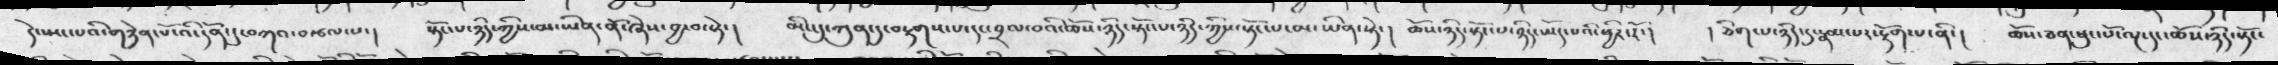དེ་ཡང་པའི་གཉེན་པོ་འི་དོན་དུ་བཀའ་བརྩལ་པ་།    སྟོང་པ་ཉིད་ཀྱིས་མ་ཡིན་ནོ་ཞེས་བྱ་བ་སྟེ་།    མིང་དུ་ཀུན་དུ་བརྟགས་པ་དང་བྲལ་བའི་ཆོས་ཉིད་སྟོང་པ་ཉིད་ཀྱིས་སྟོང་པ་མ་ཡིན་སྟེ་།     ཆོས་ཉིད་སྟོང་པ་ཉིད་ཡོད་པའི་ཕྱིར་རོ་།   ། ཅིག་པ་ཉིད་དུ་རྣམ་པར་རྟོག་པ་ནི་།   ཆོས་ཅན་ཕུང་པོ་ལྔ་དང་ཆོས་ཉིད་སྟོང་
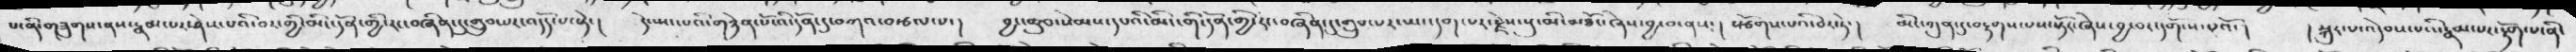པ་ནི་གཟུགས་ནས་རྣམ་པར་ཤེས་པའི་བར་གྱི་མིང་དོན་གྱི་རང་བཞིན་དུ་གྲུབ་པར་འདོད་པ་སྟེ་།   དེ་ཡང་པའི་གཉེན་པོ་འི་དོན་དུ་བཀའ་བརྩལ་པ་།  བྱང་ཆུབ་སེམས་དཔའི་མིང་གི་དོན་གྱི་རང་བཞིན་དུ་གྲུབ་པར་ཡང་དག་པར་རྗེས་སུ་མི་མཐོང་ཞེས་བྱ་བ་ནས༴།   སཙོགས་པའི་བར་ཏེ་།    མིང་གུན་དུ་བརྟགས་པས་སྟོང་ཞེས་བྱ་བར་དགོངས་པའོ་།    སྐུར་པ་འདེབས་པའི་རྣམ་པར་རྟོག་པ་ནི་
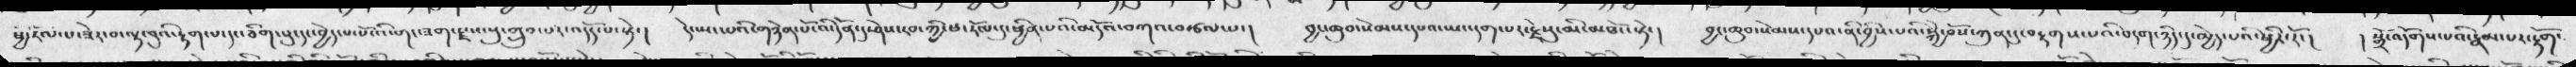ཕྱི་རོལ་པ་ཟེར་བ་ལྟ་བུའི་རྟག་པ་དང་ཅིག་པུ་དང་བྱེད་པ་པོ་འི་གང་ཟག་རྗས་སུ་གྲུབ་པར་འདོད་པ་སྟེ་།    དེ་ཡང་པའི་གཉེན་པོ་འི་དོན་དུ་ཤེས་རབ་ཀྱི་ཕ་རོལ་དུ་ཕྱིན་པའི་མདོའ་བཀའ་བརྩལ་པ་།    བྱང་ཆུབ་སེམས་དཔའ་ཡང་དག་པར་རྗེས་སུ་མི་མཐོང་སྟེ་།   བྱང་ཆུབ་སེམས་དཔའ་ནི་བྱིས་པའི་སྐྱེ་བོས་ཀུན་དུ་བརྟགས་པའི་བདག་ཉིད་དུ་མྱེད་པའི་ཕྱིར་རོ་།    སྒྲོ་འདོགས་པའི་རྣམ་པར་རྟོག་
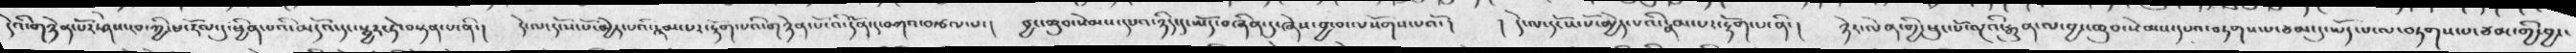དེའི་གཉེན་པོར་ཤེས་རབ་ཀྱི་ཕ་རོལ་དུ་ཕྱིན་པའི་མདོའ་དང་སྦྱར་ཏེ་བསྟན་པ་ནི་།     དེ་ལ་དངོས་པོ་མྱེད་པའི་རྣམ་པར་རྟོག་པའི་གཉེན་པོ་འི་དོན་དུ་བཀའ་བརྩལ་པ་།  བྱང་ཆུབ་སེམས་དཔའ་ཉིད་དུ་མདོ་བཞིན་དུ་ཞེས་བྱ་བ་ལསོགས་པའོ་།      ། དེ་ལ་དངོས་པོ་མྱེད་པའི་རྣམ་པར་རྟོག་པ་ནི་།     ཉེར་ལེན་གྱི་ཕུང་པོ་ལྔའི་རྒྱུན་ལ་བྱང་ཆུབ་སེམས་དཔའ་བརྟགས་པ་ཙམ་དུ་ཡོད་པ་ལ་བརྟགས་པ་ཙམ་གྱི་བྱང་
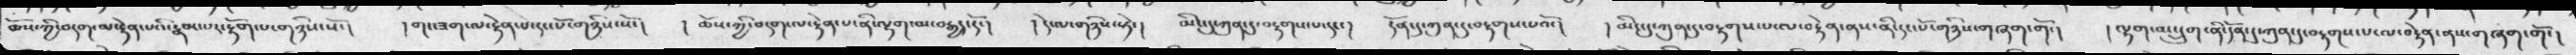ཆོས་ཀྱི་བདག་ལ་རྟེན་པའི་རྣམ་པར་རྟོག་པ་གཉིས་སོ་།   ། གང་ཟག་ལ་རྟེན་པ་དང་པོ་གཉིས་སོ་།  །  ཆོས་ཀྱི་བདག་ལ་རྟེན་པ་ནི་ལྷག་མ་བརྒྱད་དོ་།    ། དེ་ལ་གཉིས་སྟེ་།   མིང་དུ་ཀུན་དུ་བརྟགས་པ་དང་ །   དོན་དུ་ཀུན་དུ་བརྟགས་པའོ་།     ། མིང་དུ་ཀུན་དུ་བརྟགས་པ་ལ་བརྟེན་ནས་ནི་དང་པོ་གཉིས་གཞག་གོ་།   ། ལྷག་མ་དྲུག་ནི་དོན་དུ་ཀུན་དུ་བརྟགས་པ་ལ་བརྟེན་ནས་གཞག་གོ་།
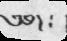༄༅།   ༴
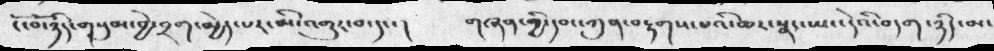ངོ་བོ་ཉིད་གསུམ་བྱེ་བྲག་མྱེད་པར་མི་འགྱུར་བ་དང་།     གཞན་གྱི་དབང་ཀུན་བརྟགས་པའི་ཆར་སྣང་ཡང་དེའི་བདག་ཉིད་མ་
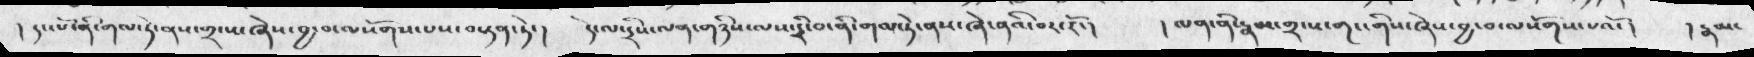།  དང་པོ་ནི་གལ་ཏེ་ནས་གྲངས་ཞེས་བྱ་བ་ལསོགས་པས་བསྟན་ཏེ་།  དེ་ལ་དྲིས་ལན་གཉིས་ལས་དྲི་བ་ནི་གལ་ཏེ་ནས་ཞེ་ནའི་བར་རོ་།  ། ལན་ནི་རྣམ་གྲངས་གང་གིས་ཞེས་བྱ་བ་ལསོགས་པའོ་།   ། རྣམ་
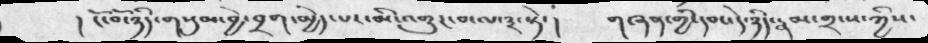།   ངོ་བོ་ཉིད་གསུམ་བྱེ་བྲག་མྱེད་པར་མི་འགྱུར་བ་ལ་༣་སྟེ་།     གཞན་གྱི་དབང་དེ་ཉིད་རྣམ་གྲངས་ཀྱིས་
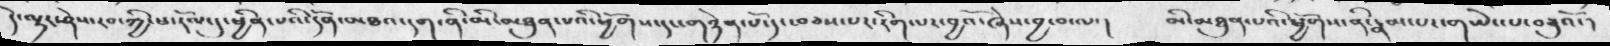དེ་ལྟར་ཤེས་རབ་ཀྱི་ཕ་རོལ་དུ་ཕྱིན་པའི་དོན་མཐའ་དག་ནི་མི་མཐུན་པའི་ཕྱོགས་དང་གཉེན་པོ་དང་བཅས་པར་རིག་པར་བྱའོ་ཞེས་བྱ་བ་ལ་།   མི་མཐུན་པའི་ཕྱོགས་ནི་རྣམ་པར་གཡེང་པ་བཅུའོ་།
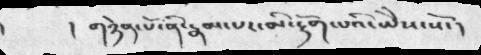།  གཉེན་པོ་ནི་རྣམ་པར་མི་རྟོག་པའི་ཡེེས་སོ་།
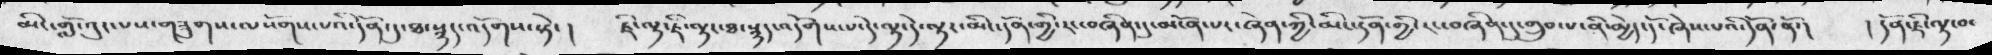མིང་གློ་བུར་པས་གཟུགས་ལསོགས་པའི་དོན་དུ་ཐ་སྙད་འདོགས་སྟེ་།   ཇི་ལྟ་ཇི་ལྟར་ཐ་སྙད་འདོགས་པ་དེ་ལྟ་དེ་ལྟར་མིང་དོན་གྱི་རང་བཞིན་དུ་མངོན་པར་ཞེན་ཀྱི་མིང་དོན་གྱི་རང་བཞིན་དུ་གྲུབ་པ་ནི་མྱེད་དོ་ཞེས་པའི་དོན་ནོ་།  ། དོན་ཇི་ལྟ་བ་
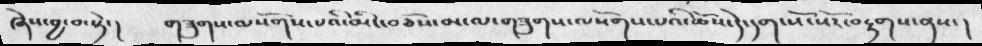ཞེས་བྱ་བ་སྟེ་།   གཟུགས་ལསོགས་པའི་མིང་བཅོས་མ་ལ་གཟུགས་ལསོགས་པའི་ཆོས་དེ་དག་སོ་སོར་བརྟགས་ནས་།
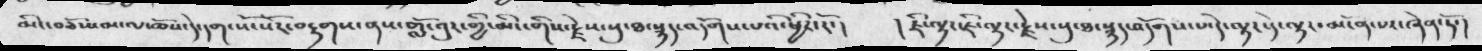མིང་བཅོས་མ་ལ་ཆོས་དེ་དག་སོ་སོར་བརྟགས་ནས་གློ་བུར་གྱི་མིང་གིས་རྗེས་སུ་ཐ་སྙད་འདོགས་པའི་ཕྱིར་རོ་།    ། ཇི་ལྟར་ཇི་ལྟར་རྗེས་སུ་ཐ་སྙད་འདོགས་པ་དེ་ལྟར་དེ་ལྟར་མངོན་པོར་ཞེན་ཏོ་།
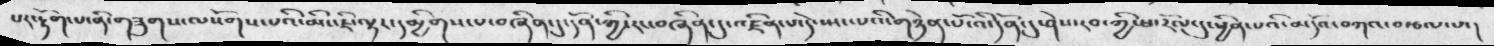པར་རྟོག་པ་ནི་གཟུགས་ལསོགས་པའི་མིང་ཇི་ལྟར་དམྱིགས་པ་བཞིན་དུ་དོན་གྱི་རང་བཞིན་དུ་འཛིན་པ་དེ་སྤང་པའི་གཉེན་པོ་འི་དོན་དུ་ཤེས་རབ་ཀྱི་ཕ་རོལ་དུ་ཕྱིན་པའི་མདོའ་བཀའ་བརྩལ་པ་།
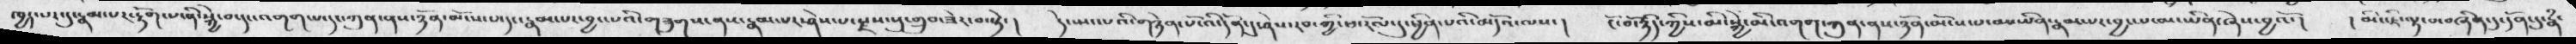ཁྱད་པར་དུ་རྣམ་པར་རྟོག་པ་ནི་སྐྱེ་བ་དང་འགག་པ་དང་ཀུན་ནས་ཉོན་མོངས་པ་དང་རྣམ་པར་བྱང་པའི་གཟུགས་ནས་རྣམ་པར་ཤེས་པ་རྫས་སུ་གྲུབ་ཟེར་བ་སྟེ་།   དེ་སྤང་པའི་གཉེན་པོ་འི་དོན་དུ་ཤེས་རབ་ཀྱི་ཕ་རོལ་དུ་ཕྱིན་པའི་མདོའ་ལས་།  ངོ་བོ་ཉིད་ཀྱིས་མི་སྐྱེ་མི་འགག་ཀུན་ནས་ཉོན་མོངས་པ་མ་ཡིན་རྣམ་པར་བྱང་པ་མ་ཡིན་ཞེས་བྱའོ་།   ། མིང་ཇི་ལྟ་བ་བཞིན་དུ་དོན་དུ་རྣཾ་
